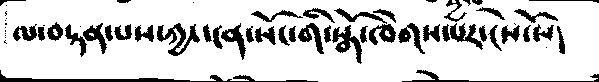ལ་བསྟན་པས་ཀྱང་ངན་སོང་གི་སྒོ་ཁེགས་པར་ངེས་སོ།
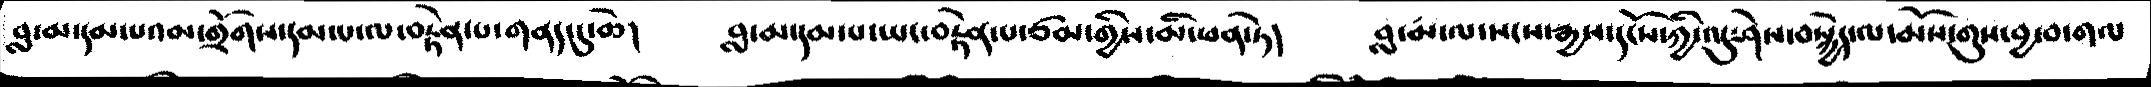བླ་མ་དམ་པའམ་གྲོགས་དམ་པ་ལ་བརྟེན་པ་གནད་དུ་ཆེ།   བླ་མ་དམ་པ་ཡང་བརྟེན་པ་ཙམ་གྱིས་མི་ཕན་ཏེ།   བླ་མ་ལ་སངས་རྒྱས་དངོས་ཀྱི་འདུ་ཤེས་བསྐྱེད་ལ་མོས་གུས་བྱ་བ་གལ་
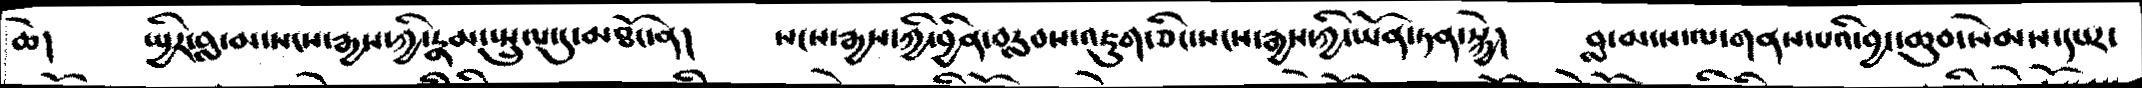ཆེ།   སྤྱིར་བླ་མ་སངས་རྒྱས་ཀྱི་རྣམ་སྤྲུལ་དུ་མཐོང་ན།   སངས་རྒྱས་ཀྱི་བྱིན་བརླབས་འཇུག་ཅིང་སངས་རྒྱས་ཀྱི་ཡོན་ཏན་སྐྱེ།  བླ་མ་ས་ལ་གནས་པའི་བྱང་ཆུབ་སེམས་དཔར་
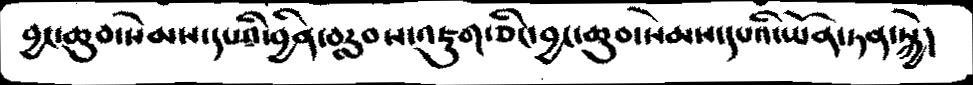བྱང་ཆུབ་སེམས་དཔའི་བྱིན་བརླབས་འཇུག་ཅིང་བྱང་ཆུབ་སེམས་དཔའི་ཡོན་ཏན་སྐྱེ།
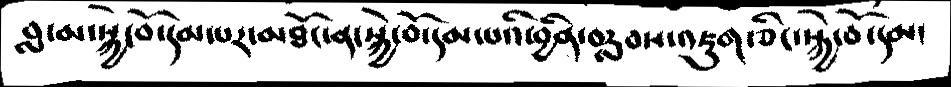བླ་མ་སྐྱེ་བོ་དམ་པར་མཐོང་ན་སྐྱེ་བོ་དམ་པའི་བྱིན་བརླབས་འཇུག་ཅིང་སྐྱེ་བོ་དམ།
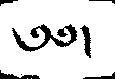༄༅།
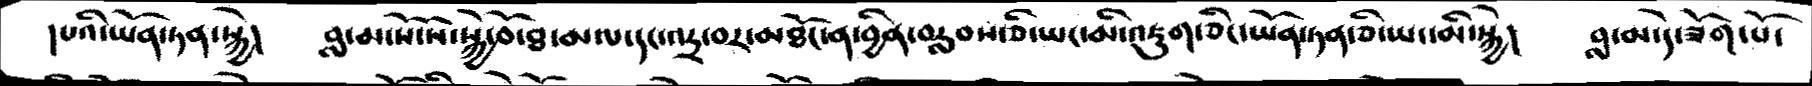།པའི་ཡོན་ཏན་སྐྱེ།  བླ་མ་སོ་སོ་སྐྱེ་བོ་ཐ་མལ་དང་འདྲ་བར་མཐོང་ན་བྱིན་བརླབས་ཅི་ཡང་མི་འཇུག་ཅིང་ཡོན་ཏན་ཅི་ཡང་མི་སྐྱེ།  བླ་མ་དེ་ཟོག་པོ་
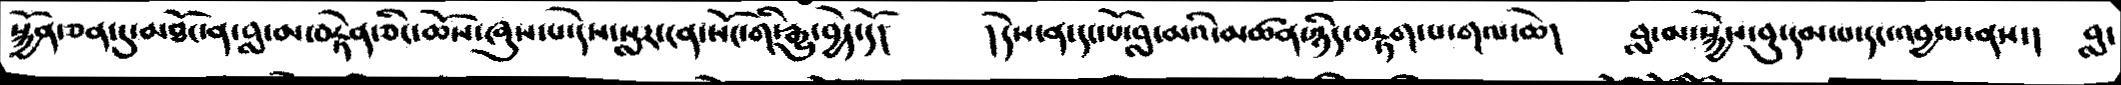སྐྱོན་ཅན་དུ་མཐོང་ན་བླ་མ་བརྟེན་ཅིང་ཆོས་ཞུས་པ་དེས་སླར་ངན་སོང་གི་རྒྱུ་བྱེད་དོ།  །དེས་ན་དང་པོ་བླ་མའི་མཚན་ཉིད་བརྟག་པ་གལ་ཆེ།  བླ་མ་སྐྱེས་བུ་དམ་པ་དང་འབྱལ་ནས་།  བླ་
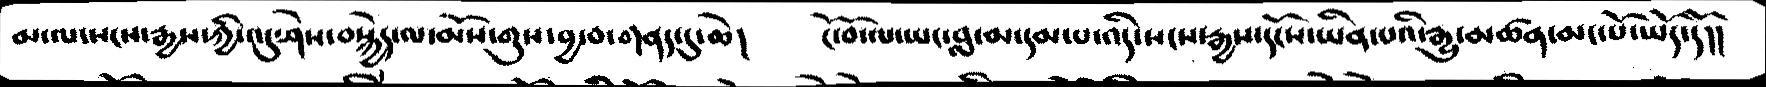མ་ལ་སངས་རྒྱས་ཀྱི་འདུ་ཤེས་བསྐྱེད་ལ་མོས་གུས་བྱ་བ་གནད་དུ་ཆེ།  ངོ་བོ་ལ་ཡང་བླ་མ་དམ་པ་འདི་སངས་རྒྱས་དངོས་ཡིན་པའི་རྒྱུ་མཚན་མང་པོ་ཡོད་དོ།།
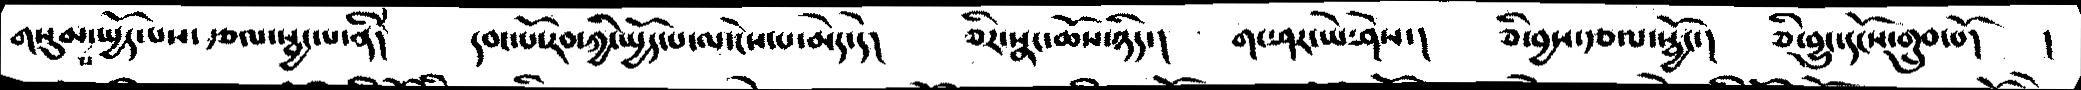གསུམ་པ་སྤྱོད་པས་རྩལ་སྦྱང་པ་ནི།  དབང་པོ་རབ་ཀྱི་སྤྱོད་པ་ལ་ངེས་པ་མེད་དེ།   ཅིར་སྣང་ཆོས་ཉིད་།  གང་ཤར་ཡེ་ཤེས་།  ཅི་བྱས་རྩལ་སྦྱོང་།  ཅི་བྱུང་དངོས་གྲུབ་པོ།  །
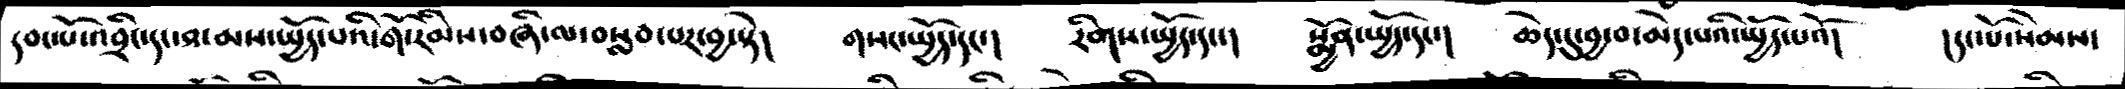དབང་པོ་འབྲིང་དང་ཐ་མས་སྤྱོད་པའི་གོ་རིམས་བཞི་ལ་བསླབ་པར་བྱ་སྟེ།  གསང་སྤྱོད་དང་།  རིགས་སྤྱོད་དང་།  སྨྱོན་སྤྱོད་དང་།  ཆེད་དུ་བྱ་བ་མེད་པའི་སྤྱོད་པའོ།  །དང་པོ་སེམས་
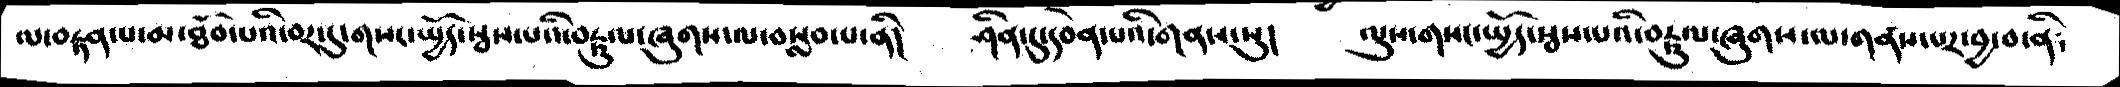ལ་བརྟན་པ་མ་ཐོབ་པའི་བར་དུ་གསང་སྤྱོད་སྦས་པའི་བརྟུལ་ཞུགས་ལ་བསླབ་པ་ནི།   ཤིན་དུ་དབེན་པའི་གནས་སུ།  ལུས་གསང་སྤྱོད་སྦས་པའི་བརྟུལ་ཞུགས་ལ་གནས་པར་བྱ་བ་ནི༴
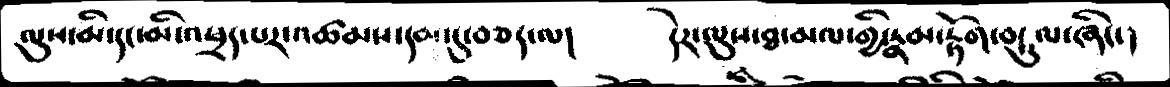ལུས་མི་དང་མི་འཕྲད་པར་འཚམས་དམ་དུ་བཅད་ལ།     དེར་ལུས་ཐ་མལ་གྱི་རྣམ་རྟོག་བཏུལ་ཞིང་།
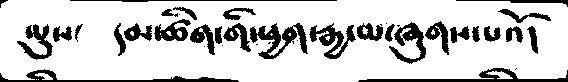ལུས་   དམ་ཚིག་གི་ཕྱག་རྒྱ་མ་ཞུགས་པའོ།
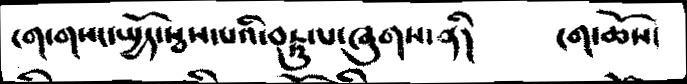ངག་གསང་སྤྱོད་སྦས་པའི་བརྟུལ་ཞུགས་ནི།    ངག་ཆོས་
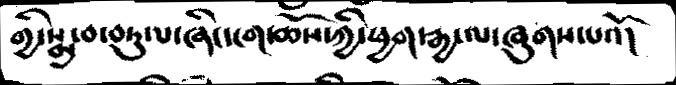གྱི་སྨྲ་བ་བཏུལ་ཞིང་ངག་ཆོས་ཀྱི་ཕྱག་རྒྱ་ལ་ཞུགས་པའོ།
